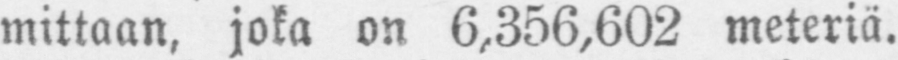mittaan, joka on 6,356,602 meteriä.
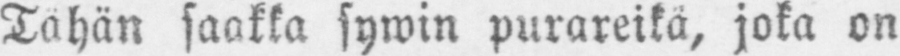Tähän saakka sywin purareikä, joka on
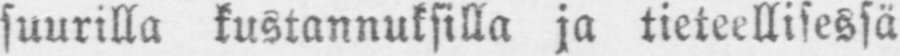suurilla kustannuksilla ja tieteellisessä
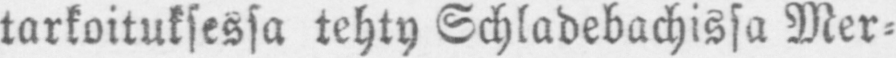tarkoituksessa tehty Schladebachissa Mer-
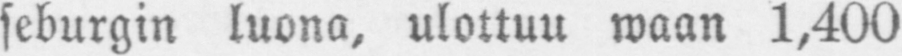seburgin luona, ulottuu waan 1,400
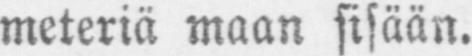meteriä maan sisään.
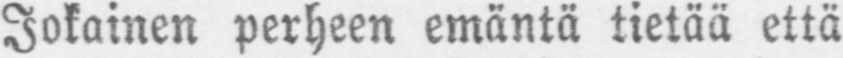Jokainen perheen emäntä tietää että
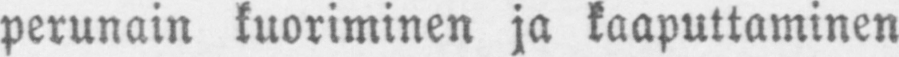perunain kuoriminen ja kaaputtaminen
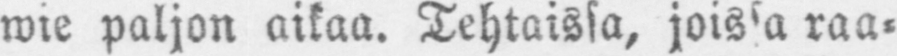wie paljon aikaa. Tehtaissa, joissa raa-
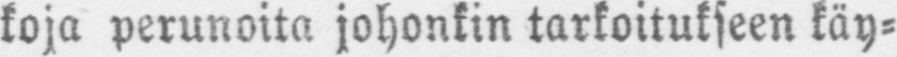koja perunoita johonkin tarkoitukseen käy-
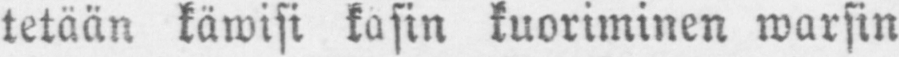tetään käwisi käsin kuoriminen warsin
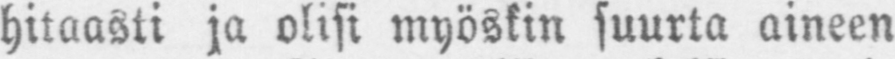hitaasti ja olisi myöskin suurta aineen
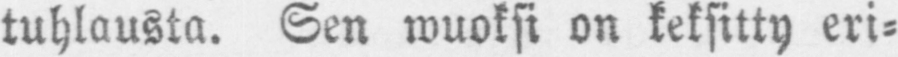tuhlausta. Sen wuoksi on keksitty eri-
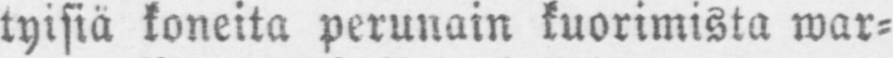tyisiä koneita perunain kuorimista war-
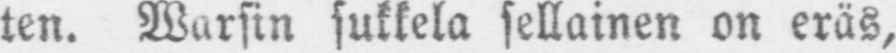ten. Warsin sukkela sellainen on eräs,
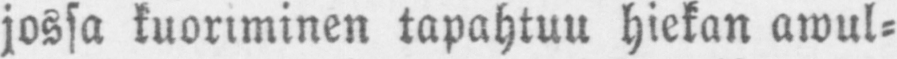jossa kuoriminen tapahtuu hiekan awul-
